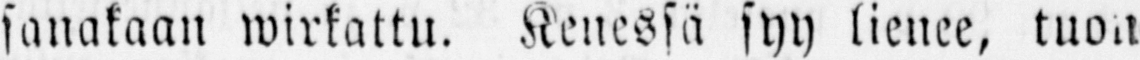sanakaan wirkattu. Kenessä syy lienee, tuon
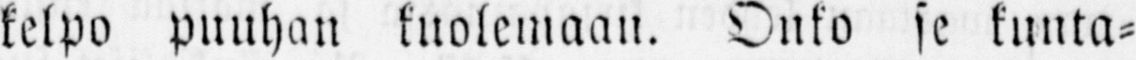kelpo puuhan kuolemaan. Onko se kunta-
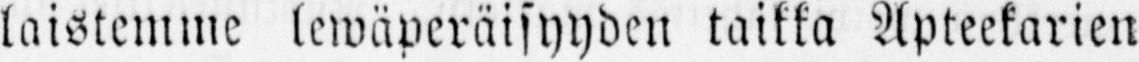laistemme lewäperäisyyden taikka Apteekarien
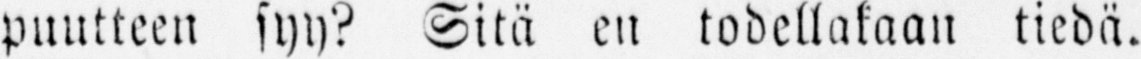puutteen syy? Sitä en todellakaan tiedä.
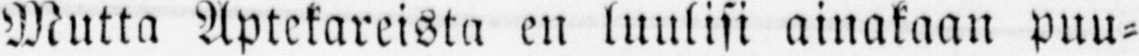Mutta Aptekareista en luulisi ainakaan puu-
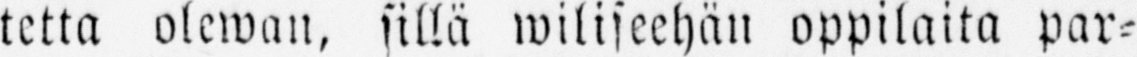tetta olewan, sillä wiliseehän oppilaita par-
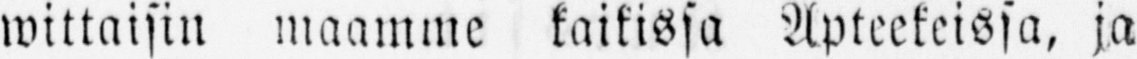wittaisin maamme kaikissa Apteekeissa, ja
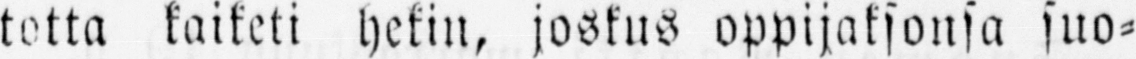totta kaiketi hekin, joskus oppijaksonsa suo-
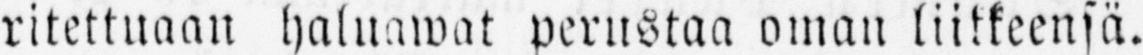ritettuaan haluawat perustaa oman liikkeensä.
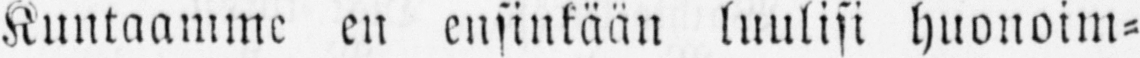Kuntaamme en ensinkään luulisi huonoim-
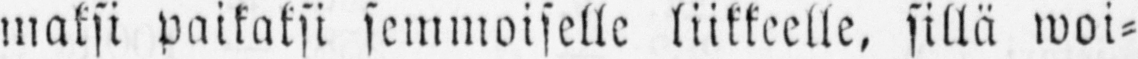maksi paikaksi semmoiselle liikkeelle, sillä woi-
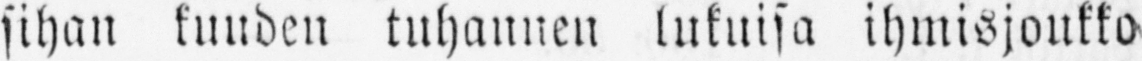sihan kuuden tuhannen lukuisa ihmisjoukko
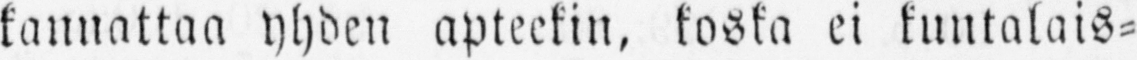kannattaa yhden apteekin, koska ei kuntalais-
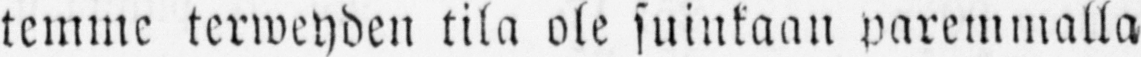temme terweyden tila ole suinkaan paremmalla
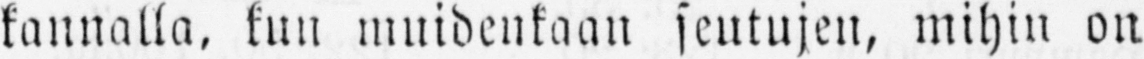kannalla, kun muidenkaan seutujen, mihin on
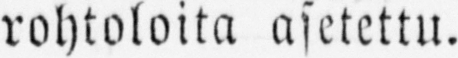rohtoloita asetettu.
